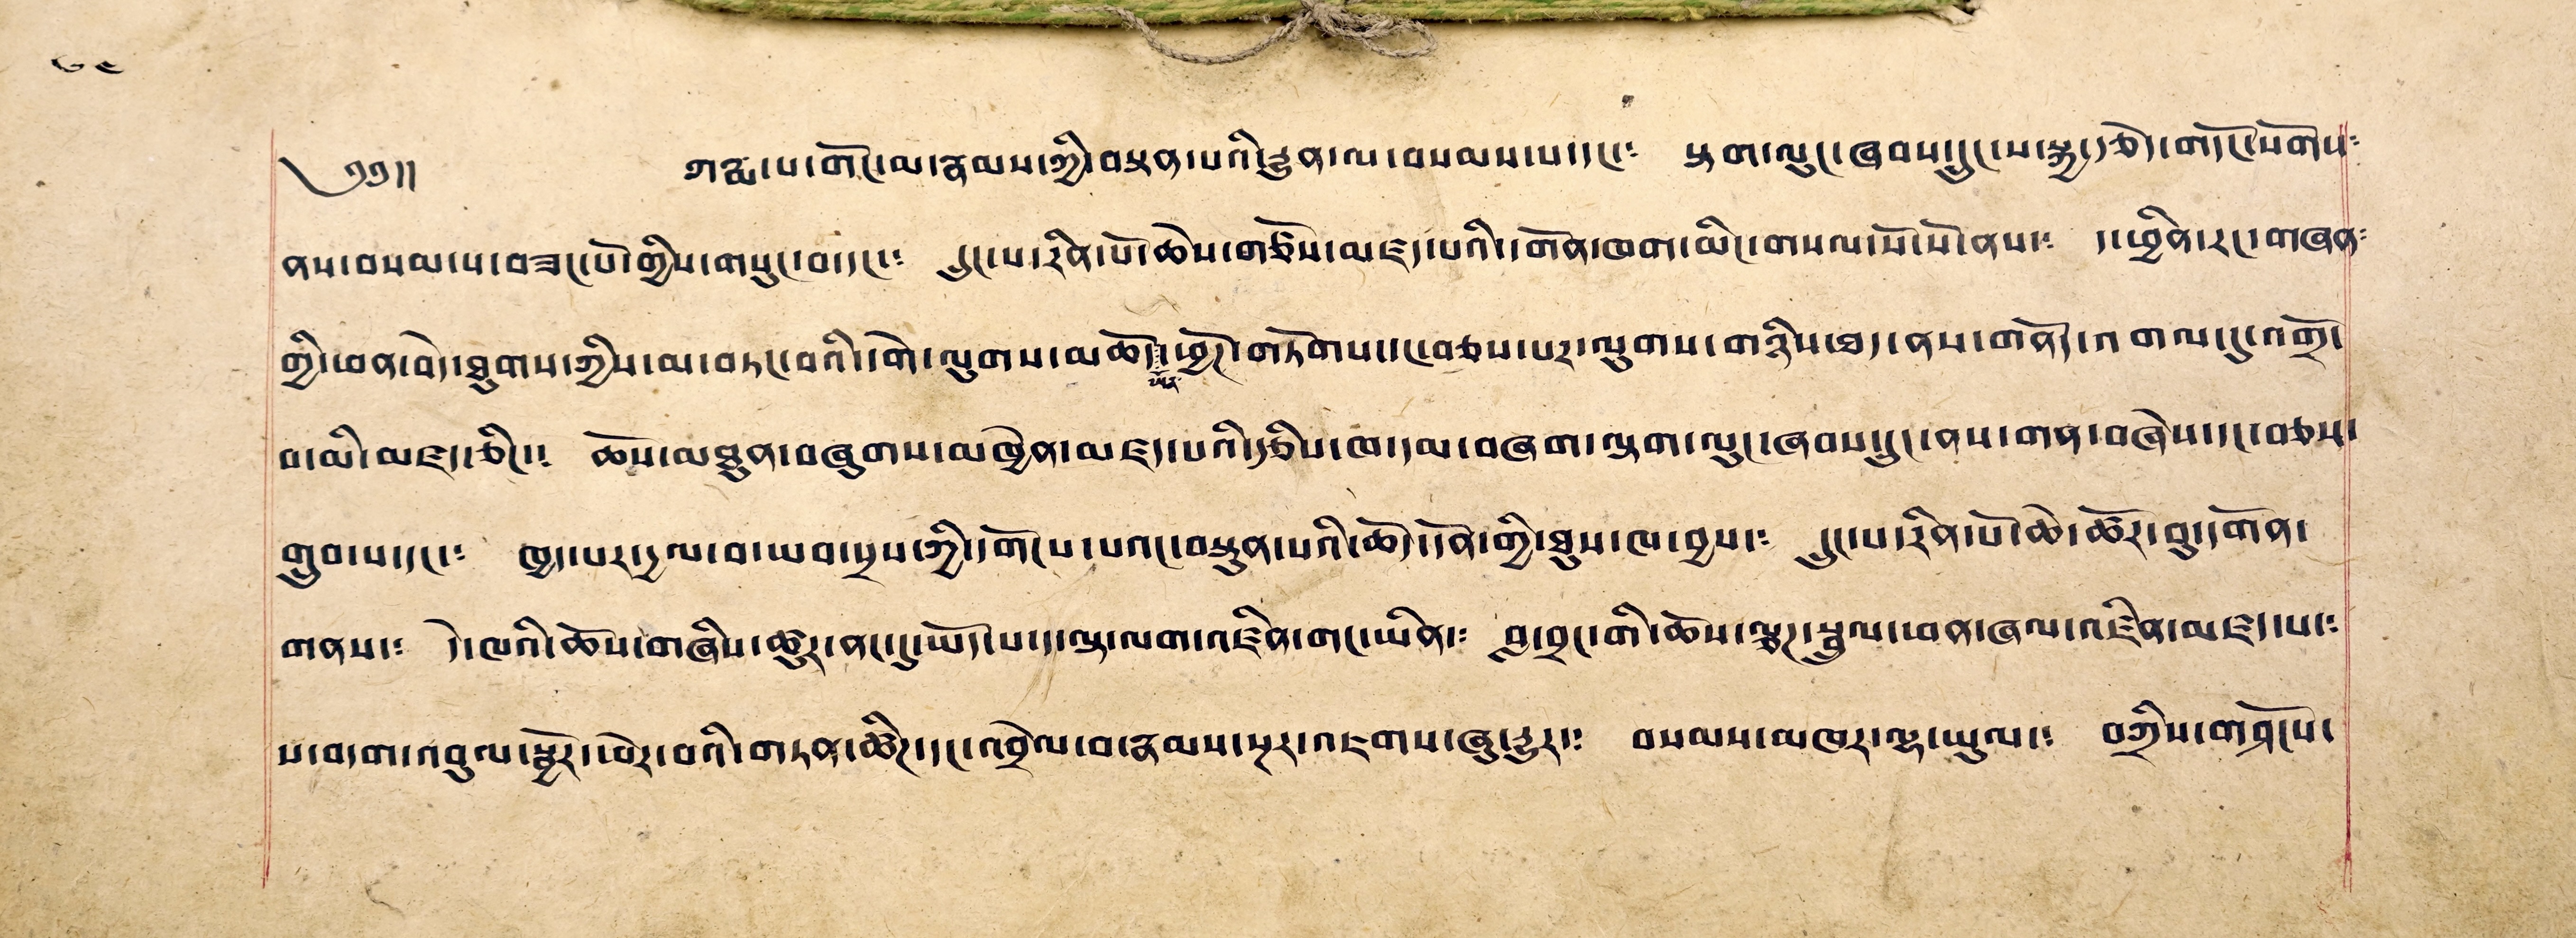༄༅།། ཀརྨ་པ་གོང་མ་རྣམས་ཀྱི་བསྟན་པའི་རྒྱུན་ལ་བསམས་པ་དང་༴ སྟག་ལུང་ཞབས་དྲུང་པ་སྐྱ་རྩེད་གདོང་སོགས༴
ནས་བསམ་པ་བཟང་པོ་གྱིས་གསུང་བ་དང་༴ དྲུང་པ་རིན་པོ་ཆེས་གཙོས་མཛད་པའི་དགོན་ཁག་མིང་གསལ་པོ་སོ་སོ་ནས་༴ ད་ཕྱིན་རང་གཞན༴
གྱི་ཕན་བདེ་ཐུགས་ཀྱིས་མ་བཏང་བའི་དགེ་ལུགས་མཆོད་ཡོན་ཕྱོཊ་གཏོགས་དང་བཅས་པར་ལུགས་གཉིས་ཐད་ནས་གནོད་འགལ་དུ་འགྲོ་
བ་མི་མཛད་ཅིང་༴ ཆོས་མཐུན་བཞུགས་མཁྱེན་མཛད་པའི་རྩིས་ཁ་དམ་བཞག་སྟག་ལུང་ཞབས་དྲུང་ནས་གན་བཞེས་དང་བཅས་
གྲུབ་པ་དང་༴ ཁྱད་པར་དྱལ་བ་ཡབ་སྲས་ཀྱི་དགོངས་པའང་བསྟུན་པའི་ཆོད་དོན་གྱི་ཐུས་ཁ་བྱས་༴ དྲུང་པ་རིན་པོ་ཆེ་ཚོར་བུ་དགོན་
གནས་༴ དེ་ཁའི་ཆོས་གཞིས་ཚུར་ནང་དུ་ཡོད་པ་ད་ལྟ་ལག་འཛིན་གང་ཡིན་༴ བླ་བྲང་གི་ཆོས་ལྕཊ་སྦྲུལ་ཕན་ཞལ་འཛིན་མཛད་པ་༴
ས་བདག་འབུལ་སྦྱོར་ཕོར་བའི་གཏན་ཚིཊ་དང་འབྲེལ་བ་རྣམས་སྔར་འཇགས་ཞུ་རྒྱུར་༴ བསམས་མཁར་ལྷ་ཡུལ་༴ བཀྲིས་གཤོངས་
